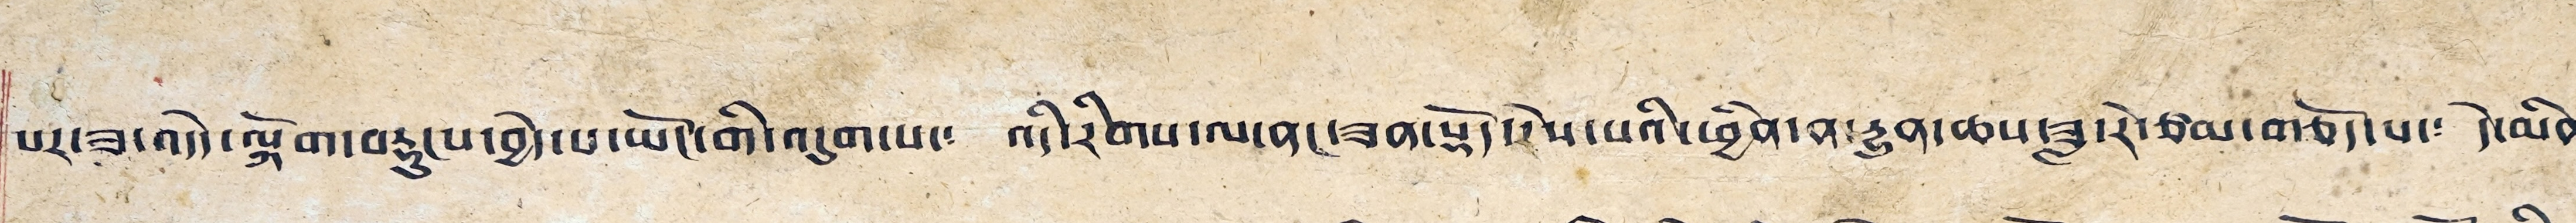པར་ཟ་འདེད་ལྐོག་བརྡུངས་བྱེད་པ་ཡོང་གི་འདུག་པ་༴ འདི་རིགས་ལ་ནང་ཟན་སྡོད་རེས་པའི་ཕྱིན་ན་རྒྱུན་ཆས་ཟླ་རེ་ཙམ་གཅོད་པ་༴ དེ་མིན་
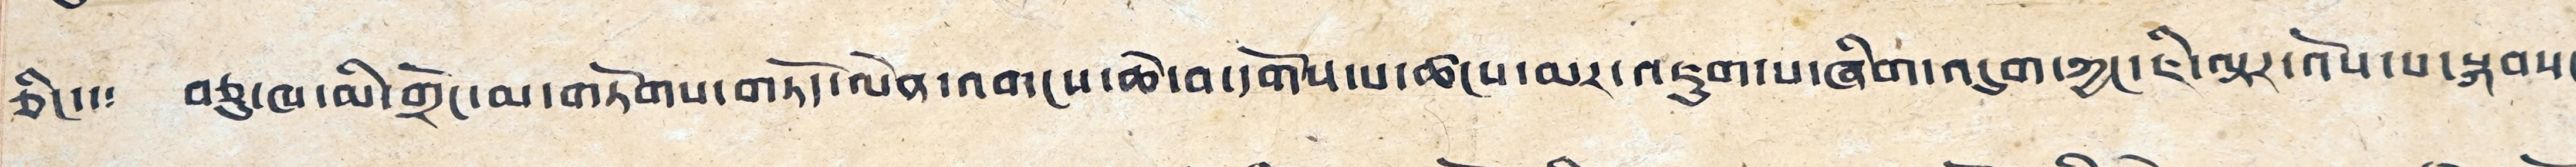ཅིང་༴ བཅུ་ཁ་མི་གྲོང་མ་གཏོགས་གཏོད་ལེན་འགངས་ཆེ་དགོས་པ་ཚངས་མར་འཇུག་པ་ཞིག་འདུག་ཀྱང་ཇི་ལྟར་འོས་པ་སྐབས་
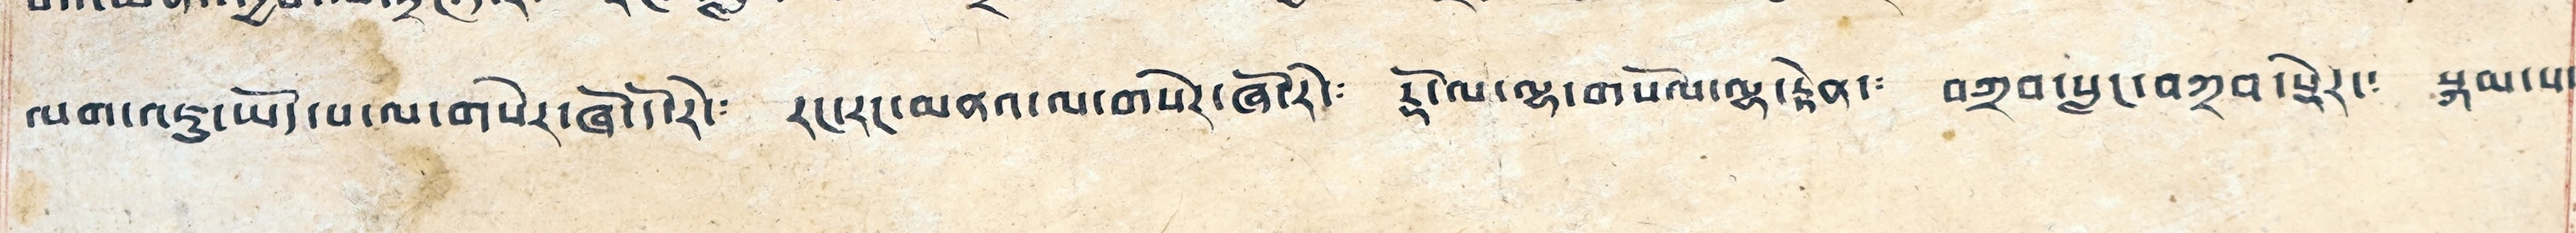ལག་འཇུ་ཡོད་པ་ལ་གསེར་ཞོ་དོ་རེ་༴ རང་རང་མནའ་ལ་གསེར་ཞོ་རེ་༴ རྡོ་ལ་ལྷ་གསོལ་ལྷ་རྟེན་༴ བཀྲབ་སླང་བཀྲབ་སྡེར་༴ སྐམ་པ་༴
